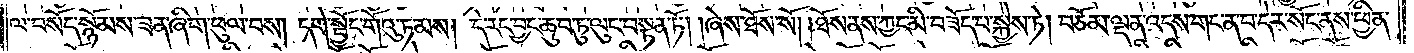ལ་བསོད་སྙོམས་ཟན་ཞིག་ཕུལ་བས། དགེ་སྦྱོང་གོའུ་ཏ་མས། དེ་རང་བྱང་ཆུབ་ཏུ་ལུང་བསྟན་ཏོ། །ཞེས་ཐོས་སོ། །ཐོས་ནས་ཀྱང་མི་བཟོད་པ་སྐྱེས་ཏེ། བཅོམ་ལྡན་འདས་གང་ན་བ་དེར་སོང་ནས་ཕྱིན་
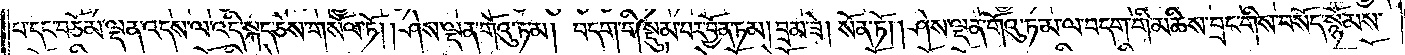པ་དང་བཅོམ་ལྡན་འདས་ལ་འདི་སྐད་ཅེས་གསོལ་ཏོ། །ཤེས་ལྡན་གོའུ་ཏ་མ། བདག་གི་སྡུམ་པར་བྱོན་ཏམ། བྲམ་ཟེ། སོན་ཏོ། །ཤེས་ལྡན་གོའུ་ཏ་མ་ལ་བདག་གི་མཆིས་བྲང་གིས་བསོད་སྙོམས་
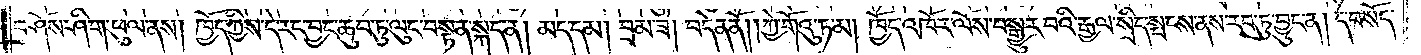བཤོས་ཤིག་ཕུལ་ནས། ཁྱོད་ཀྱིས་དེ་རང་བྱང་ཆུབ་ཏུ་ལུང་བསྟན་སྐད་ན། མད་དམ། བྲམ་ཟེ། བདེན་ནོ། །ཀྱེ་གོའུ་ཏ་མ། ཁྱོད་འཁོར་ལོས་བསྒྱུར་བའི་རྒྱལ་སྲིད་སྤངས་ནས་རབ་ཏུ་བྱུང་ན། དེ་བསོད་
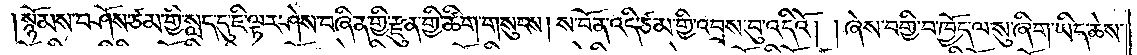སྙོམས་བཤོས་ཙམ་གྱི་སླད་དུ་ཇི་ལྟར་ཤེས་བཞིན་གྱི་རྫུན་གྱི་ཚིག་གསུངས། ས་བོན་འདི་ཙམ་གྱི་འབྲས་བུ་འདིའོ། །ཞེས་བགྱི་བ་ཁྱོད་ལ་སུ་ཞིག་ཡིད་ཆེས་
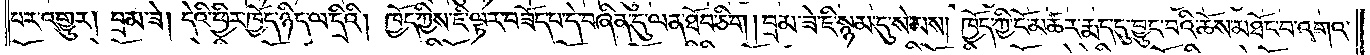པར་འགྱུར། བྲམ་ཟེ། དེའི་ཕྱིར་ཁྱོད་ཉིད་ལ་དྲིའི། །ཁྱོད་ཀྱིས་ཇི་ལྟར་བཟོད་པ་དེ་བཞིན་དུ་ལན་ཐོབ་ཅིག །བྲམ་ཟེ་ཇི་སྙམ་དུ་སེམས། ཁྱོད་ཀྱི་ངོ་མཚར་རྨད་དུ་བྱུང་བའི་ཆོས་མཐོང་བ་འགའ་
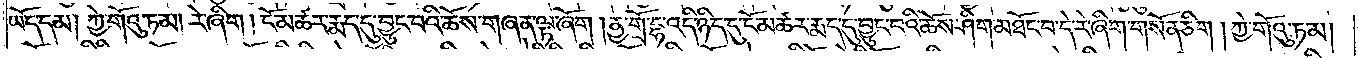ཡོད་དམ། ཀྱེ་གོའུ་ཏ་མ། རེ་ཞིག །ངོ་མཚར་རྨད་དུ་བྱུང་བའི་ཆོས་གཞན་ལྟ་ཞོག །ནྱ་གྲོ་དྷ་འདི་ཉིད་དུ་ངོ་མཚར་རྨད་དུ་བྱུང་བའི་ཆོས་ཤིག་མཐོང་བ་དེ་རེ་ཞིག་གསོན་ཅིག །ཀྱེ་གོའུ་ཏ་མ།
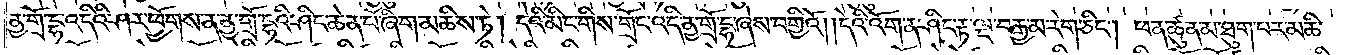ནྱ་གྲོ་དྷ་འདིའི་ཤར་ཕྱོགས་ན་ནྱ་གྲོ་དྷའི་ཤིང་ཆེན་པོ་ཞིག་མཆིས་ཏེ། དེའི་མིང་གིས་གྲོང་འདི་ནྱ་གྲོ་དྷ་ཞེས་བགྱིའོ། །དེའི་འོག་ན་ཤིང་རྟ་ལྔ་བརྒྱ་མ་རེག་ཅིང༌། ཕན་ཚུན་མ་ཐུག་པར་མཆི་
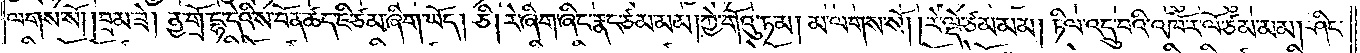ལགས་སོ། །བྲམ་ཟེ། ནྱ་གྲོ་དྷ་དེའི་ས་བོན་ཚད་ཇི་ཙམ་ཞིག་ཡོད། ཅི། རེ་ཞིག་ཞིང་རྣང་ཙམ་མམ། ཀྱེ་གོའུ་ཏ་མ། མ་ལགས་སོ། །རེ་ལྡེ་ཙམ་མམ། ཏིལ་འདྲུ་བའི་འཁོར་ལོ་ཙམ་མམ། ཤིང་
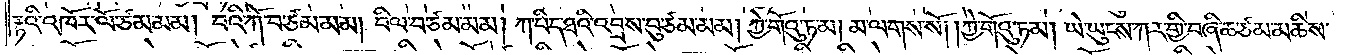རྟའི་འཁོར་ལོ་ཙམ་མམ། བའི་ཀོ་བ་ཙམ་མམ། བིལ་བ་ཙམ་མམ། ཀ་པིད་ཐའི་འབྲས་བུ་ཙམ་མམ། ཀྱེ་གོའུ་ཏ་མ། མ་ལགས་སོ། །ཀྱེ་གོའུ་ཏ་མ། ཡེ་ཡུངས་ཀར་གྱི་བཞི་ཆ་ཙམ་མཆིས་
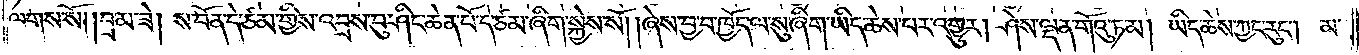ལགས་སོ། །བྲམ་ཟེ། ས་བོན་དེ་ཙམ་གྱིས་འབྲས་བུ་ཤིང་ཆེན་པོ་དེ་ཙམ་ཞིག་སྐྱེས་སོ། །ཞེས་བྱ་བ་ཁྱོད་ལ་སུ་ཞིག་ཡིད་ཆེས་པར་འགྱུར། ཤེས་ལྡན་གོའུ་ཏ་མ། ཡིད་ཆེས་ཀྱང་རུང༌། མ་
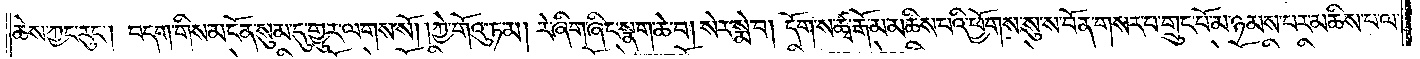ཆེས་ཀྱང་རུང༌། བདག་གིས་མངོན་སུམ་དུ་གྱུར་ལགས་སོ། །ཀྱེ་གོའུ་ཏ་མ། རེ་ཞིག་ཞིང་སྣག་ཆེ་བ། སེར་སྨེ་བ། དོག་ས་ཚྭ་རྒོ་མ་མཆིས་པའི་ཕྱོགས་སུ་ས་བོན་གསར་བ་གྲུང་པོ་མ་ཉམས་པར་མཆིས་པ་ལ་
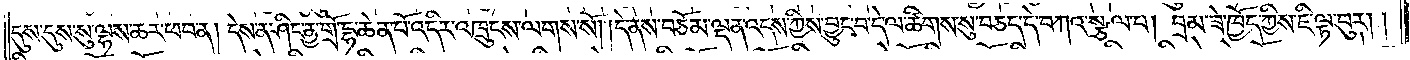དུས་དུས་སུ་ལྷས་ཆར་ཕབ་ན། དེས་ན་ཤིང་ནྱ་གྲོ་དྷ་ཆེན་པོ་འདིར་འཁྲུངས་ལགས་སོ། །དེ་ནས་བཅོམ་ལྡན་འདས་ཀྱིས་བྱུང་བ་དེ་ལ་ཚིགས་སུ་བཅད་དེ་བཀའ་སྩལ་པ། བྲམ་ཟེ་ཁྱོད་ཡིས་ཇི་ལྟ་བུར༎
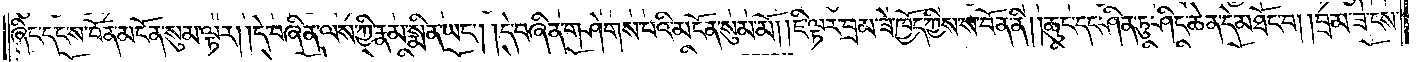ཞིང་དང་ས་བོན་མངོན་སུམ་ལྟར། །དེ་བཞིན་ལས་ཀྱི་རྣམ་སྨིན་ཡང༌། །དེ་བཞིན་གཤེགས་པའི་མངོན་སུམ་མོ། །ཇི་ལྟར་བྲམ་ཟེ་ཁྱོད་ཀྱིས་ས་བོན་ནི། །ཆུང་དང་ཤིན་ཏུ་ཤིང་ཆེན་དེ་མཐོང་བ། །བྲམ་ཟེ་ངས་
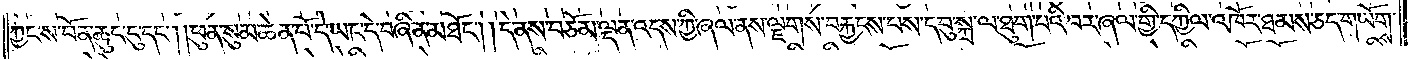ཀྱང་ས་བོན་ཆུང་ངུ་དང༌། །ཕུན་སུམ་ཆེན་པོ་དེ་ཡང་དེ་བཞིན་མཐོང༌། །དེ་ནས་བཅོམ་ལྡན་འདས་ཀྱི་ཞལ་ནས་ལྗགས་བརྐྱངས་པས་དབུ་སྐྲ་ལ་ཐུབ་པའི་བར་ཞལ་གྱི་དཀྱིལ་འཁོར་ཐམས་ཅད་གཡོགས་
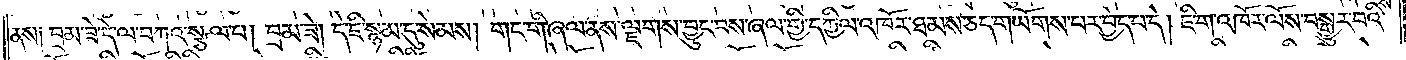ནས། བྲམ་ཟེ་དེ་ལ་བཀའ་སྩལ་པ། བྲམ་ཟེ། དེ་ཇི་སྙམ་དུ་སེམས། གང་གི་ཞལ་ནས་ལྗགས་བྱུང་བས་ཞལ་གྱི་དཀྱིལ་འཁོར་ཐམས་ཅད་གཡོགས་པར་བྱེད་པ་དེ། ཇི་ག་འཁོར་ལོས་བསྒྱུར་བའི་
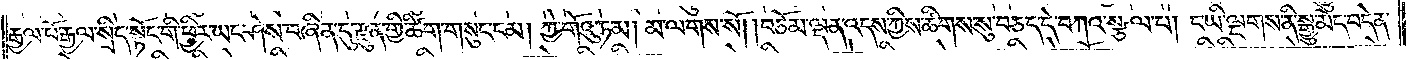རྒྱལ་པོ་རྒྱལ་སྲིད་སྟོང་གི་ཕྱིར་ཡང་ཤེས་བཞིན་དུ་རྫུན་གྱི་ཚིག་གསུང་ངམ། ཀྱེ་གོའུ་ཏ་མ། མ་ལགས་སོ། །བཅོམ་ལྡན་འདས་ཀྱིས་ཚིགས་སུ་བཅད་དེ་བཀའ་སྩལ་པ། ང་ཡི་ལྔགས་ནི་སྒྱུ་མེད་བདེན་
